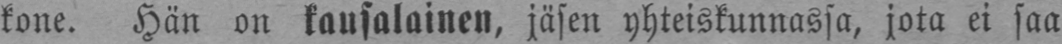kone. Hän on kausalainen, jäsen yhteiskunnassa, jota ei saa
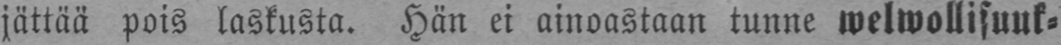jättää pois laskusta. Hän ei ainoastaan tunne welwollisuuk-
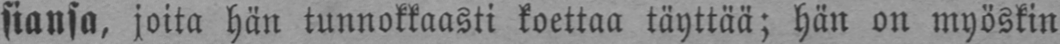siansa, joita hän tunnokkaasti koettaa täyttää; hän on myöskin
